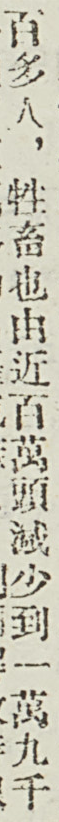百多人，牲畜也由近百萬頭減少到一萬九千
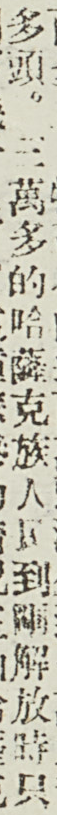多頭。三萬多的哈薩克族人民到剛解放時只
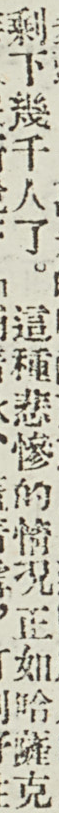剩下幾千人了。這種悲慘的情況正如哈薩克
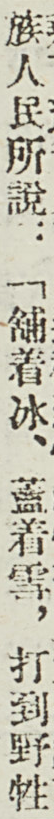族人民所說：「鋪着冰、蓋着雪，打到野牲
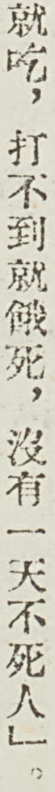就吃，打不到就餓死，沒有一天不死人」。
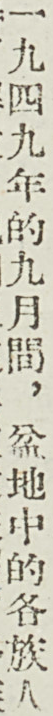一九四九年的九月間，盆地中的各族人
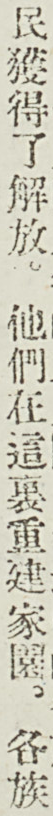民獲得了解放。他們在這裏重建家園。各族
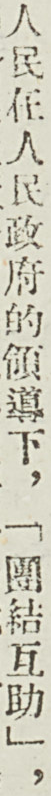人民在人民政府的領導下，「團結互助」，
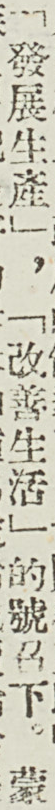「發展生產」，「改善生活」的號召下。蒙
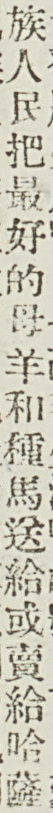族人民把最好的母羊和種馬送給或賣給哈薩
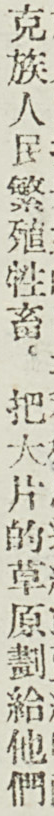克族人民繁殖牲畜，把大片的草原劃給他們
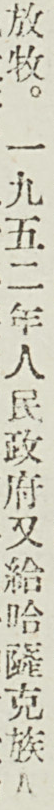放牧。一九五二年人民政府又給哈薩克族人
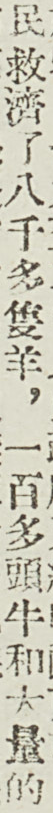民救濟了八千多隻羊，一百多頭牛和大量的
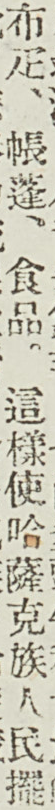布疋、帳篷、食品，這樣使哈薩克族人民擺
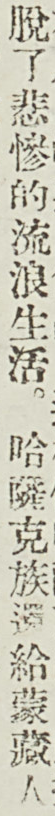脫了悲慘的流浪生活。哈薩克族還給蒙藏人
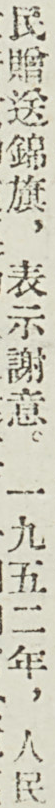民贈送錦旗，表示謝意。一九五二年，人民
